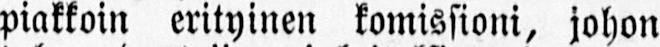piakkoin erityinen komissioni, johon
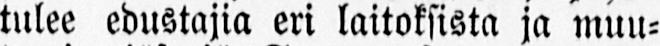tulee edustajia eri laitoksista ja muu-
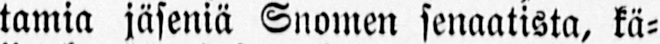tamia jäseniä Snomen senaatista, kä-
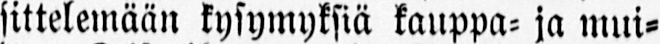sittelemään kysymyksiä kauppa- ja mui-
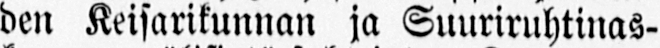den Keisarikunnan ja Suuriruhtinas-
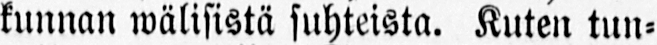kunnan wälisistä suhteista. Kuten tun-
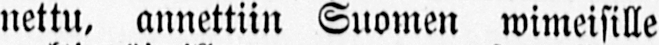nettu, annettiin Suomen wimeisille
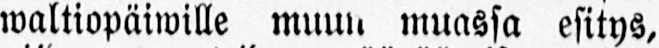waltiopäiwille muun, muassa esitys,
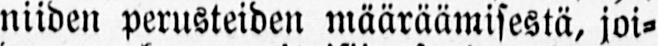niiden perusteiden määräämisestä, joi-
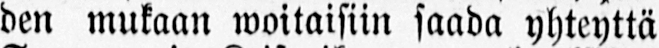den mukaan woitaisiin saada yhteyttä
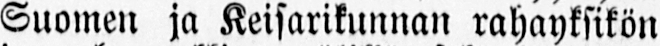Suomen ja Keisarikunnan rahayksikön
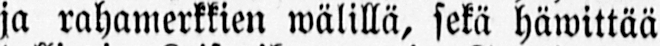ja rahamerkkien wälillä, sekä häwittää
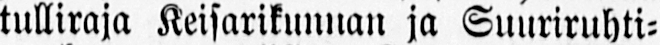tulliraja Keisarikunnan ja Suuriruhti-
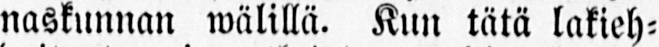naskunnan wälillä. Kun tätä lakieh-
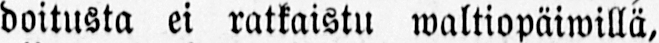doitusta ei ratkaistu waltiopäiwillä,
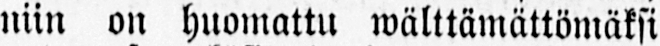niin on huomattu wälttämättömäksi
